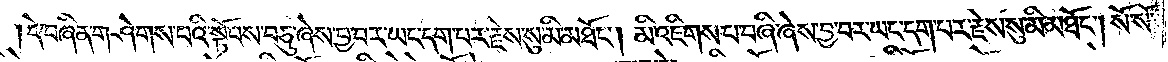དེ་བཞིན་གཤེགས་པའི་སྟོབས་བཅུ་ཞེས་བྱ་བར་ཡང་དག་པར་རྗེས་སུ་མི་མཐོང༌། མི་འཇིགས་པ་བཞི་ཞེས་བྱ་བར་ཡང་དག་པར་རྗེས་སུ་མི་མཐོང༌། སོ་སོ་
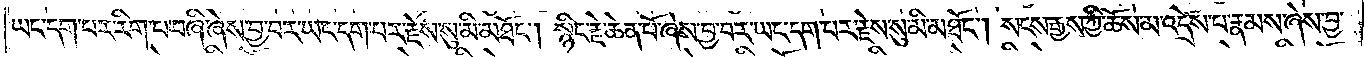ཡང་དག་པར་རིག་པ་བཞི་ཞེས་བྱ་བར་ཡང་དག་པར་རྗེས་སུ་མི་མཐོང༌། སྙིང་རྗེ་ཆེན་པོ་ཞེས་བྱ་བར་ཡང་དག་པར་རྗེས་སུ་མི་མཐོང༌། སངས་རྒྱས་ཀྱི་ཆོས་མ་འདྲེས་པ་རྣམས་ཞེས་བྱ་
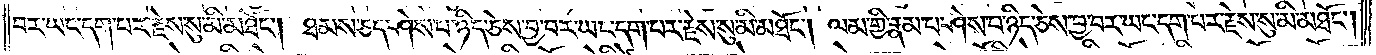བར་ཡང་དག་པར་རྗེས་སུ་མི་མཐོང༌། ཐམས་ཅད་ཤེས་པ་ཉིད་ཅེས་བྱ་བར་ཡང་དག་པར་རྗེས་སུ་མི་མཐོང༌། ལམ་གྱི་རྣམ་པ་ཤེས་པ་ཉིད་ཅེས་བྱ་བར་ཡང་དག་པར་རྗེས་སུ་མི་མཐོང༌།
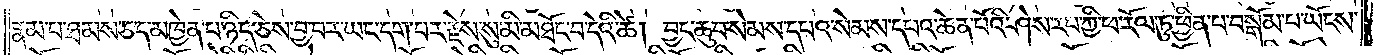རྣམ་པ་ཐམས་ཅད་མཁྱེན་པ་ཉིད་ཅེས་བྱ་བར་ཡང་དག་པར་རྗེས་སུ་མི་མཐོང་བ་དེའི་ཚེ། བྱང་ཆུབ་སེམས་དཔའ་སེམས་དཔའ་ཆེན་པོའི་ཤེས་རབ་ཀྱི་ཕ་རོལ་ཏུ་ཕྱིན་པ་བསྒོམ་པ་ཡོངས་
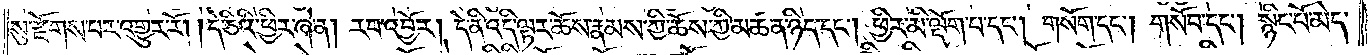སུ་རྫོགས་པར་འགྱུར་རོ། །དེ་ཅིའི་ཕྱིར་ཞེ་ན། རབ་འབྱོར། དེ་ནི་འདི་ལྟར་ཆོས་རྣམས་ཀྱི་ཆོས་ཀྱི་མཚན་ཉིད་དང་ཕྱིར་མི་ལྡོག་པ་དང༌། གསོག་དང༌། གསོབ་དང༌། སྙིང་པོ་མེད་
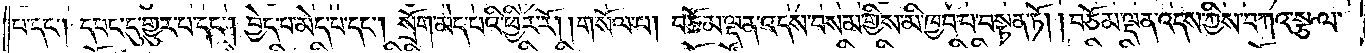པ་དང༌། དབང་དུ་གྱུར་པ་དང༌། བྱེད་པ་མེད་པ་དང༌། སྲོག་མེད་པའི་ཕྱིར་རོ། །གསོལ་པ། བཅོམ་ལྡན་འདས་བསམ་གྱིས་མི་ཁྱབ་པ་བསྟན་ཏོ། །བཅོམ་ལྡན་འདས་ཀྱིས་བཀའ་སྩལ་
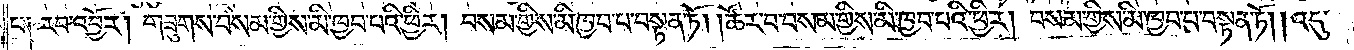པ། རབ་འབྱོར། གཟུགས་བསམ་གྱིས་མི་ཁྱབ་པའི་ཕྱིར། བསམ་གྱིས་མི་ཁྱབ་པ་བསྟན་ཏོ། །ཚོར་བ་བསམ་གྱིས་མི་ཁྱབ་པའི་ཕྱིར། བསམ་གྱིས་མི་ཁྱབ་པ་བསྟན་ཏོ། །འདུ་
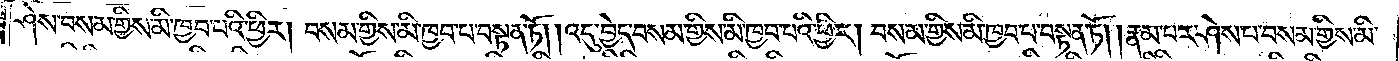ཤེས་བསམ་གྱིས་མི་ཁྱབ་པའི་ཕྱིར། བསམ་གྱིས་མི་ཁྱབ་པ་བསྟན་ཏོ། །འདུ་བྱེད་བསམ་གྱིས་མི་ཁྱབ་པའི་ཕྱིར། བསམ་གྱིས་མི་ཁྱབ་པ་བསྟན་ཏོ། །རྣམ་པར་ཤེས་པ་བསམ་གྱིས་མི་
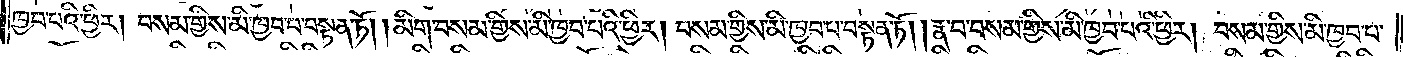ཁྱབ་པའི་ཕྱིར། བསམ་གྱིས་མི་ཁྱབ་པ་བསྟན་ཏོ། །མིག་བསམ་གྱིས་མི་ཁྱབ་པའི་ཕྱིར། བསམ་གྱིས་མི་ཁྱབ་པ་བསྟན་ཏོ། །རྣ་བ་བསམ་གྱིས་མི་ཁྱབ་པའི་ཕྱིར། བསམ་གྱིས་མི་ཁྱབ་པ་
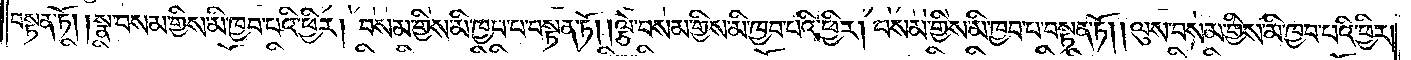བསྟན་ཏོ། །སྣ་བསམ་གྱིས་མི་ཁྱབ་པའི་ཕྱིར། བསམ་གྱིས་མི་ཁྱབ་པ་བསྟན་ཏོ། །ལྕེ་བསམ་གྱིས་མི་ཁྱབ་པའི་ཕྱིར། བསམ་གྱིས་མི་ཁྱབ་པ་བསྟན་ཏོ། །ལུས་བསམ་གྱིས་མི་ཁྱབ་པའི་ཕྱིར།
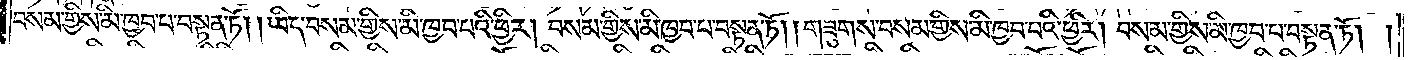བསམ་གྱིས་མི་ཁྱབ་པ་བསྟན་ཏོ། །ཡིད་བསམ་གྱིས་མི་ཁྱབ་པའི་ཕྱིར། བསམ་གྱིས་མི་ཁྱབ་པ་བསྟན་ཏོ། །གཟུགས་བསམ་གྱིས་མི་ཁྱབ་པའི་ཕྱིར། བསམ་གྱིས་མི་ཁྱབ་པ་བསྟན་ཏོ། །
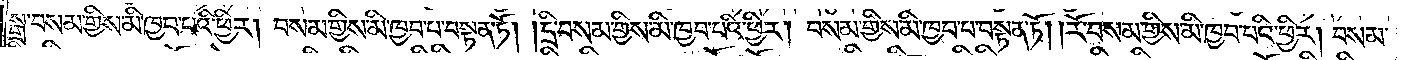སྒྲ་བསམ་གྱིས་མི་ཁྱབ་པའི་ཕྱིར། བསམ་གྱིས་མི་ཁྱབ་པ་བསྟན་ཏོ། །དྲི་བསམ་གྱིས་མི་ཁྱབ་པའི་ཕྱིར། བསམ་གྱིས་མི་ཁྱབ་པ་བསྟན་ཏོ། །རོ་བསམ་གྱིས་མི་ཁྱབ་པའི་ཕྱིར། བསམ་
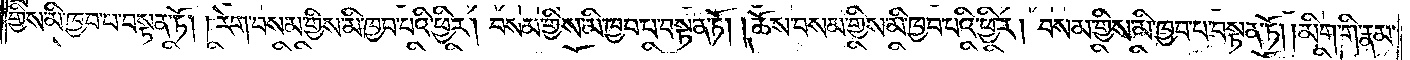གྱིས་མི་ཁྱབ་པ་བསྟན་ཏོ། །རེག་བསམ་གྱིས་མི་ཁྱབ་པའི་ཕྱིར། བསམ་གྱིས་མི་ཁྱབ་པ་བསྟན་ཏོ། །ཆོས་བསམ་གྱིས་མི་ཁྱབ་པའི་ཕྱིར། བསམ་གྱིས་མི་ཁྱབ་པ་བསྟན་ཏོ། །མིག་གི་རྣམ་
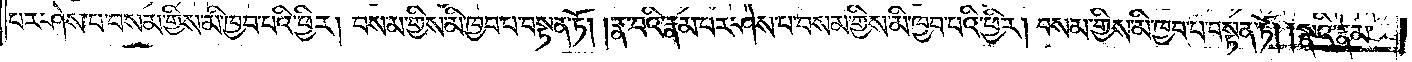པར་ཤེས་པ་བསམ་གྱིས་མི་ཁྱབ་པའི་ཕྱིར། བསམ་གྱིས་མི་ཁྱབ་པ་བསྟན་ཏོ། །རྣ་བའི་རྣམ་པར་ཤེས་པ་བསམ་གྱིས་མི་ཁྱབ་པའི་ཕྱིར། བསམ་གྱིས་མི་ཁྱབ་པ་བསྟན་ཏོ། །སྣའི་རྣམ་
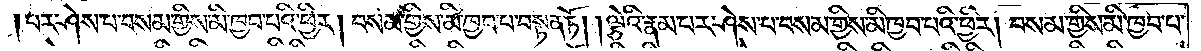པར་ཤེས་པ་བསམ་གྱིས་མི་ཁྱབ་པའི་ཕྱིར། བསམ་གྱིས་མི་ཁྱབ་པ་བསྟན་ཏོ། །ལྕེའི་རྣམ་པར་ཤེས་པ་བསམ་གྱིས་མི་ཁྱབ་པའི་ཕྱིར། བསམ་གྱིས་མི་ཁྱབ་པ་
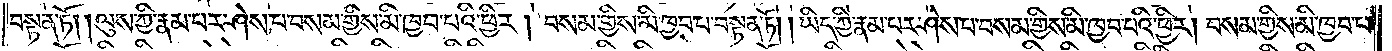བསྟན་ཏོ། །ལུས་ཀྱི་རྣམ་པར་ཤེས་པ་བསམ་གྱིས་མི་ཁྱབ་པའི་ཕྱིར། བསམ་གྱིས་མི་ཁྱབ་པ་བསྟན་ཏོ། །ཡིད་ཀྱི་རྣམ་པར་ཤེས་པ་བསམ་གྱིས་མི་ཁྱབ་པའི་ཕྱིར། བསམ་གྱིས་མི་ཁྱབ་པ་
